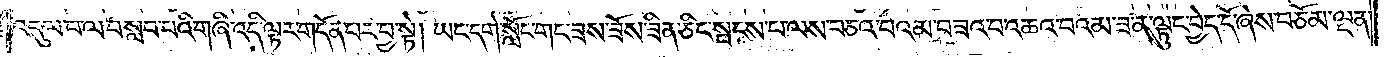འདུལ་བ་ལ་བསླབ་པའི་གཞི་འདི་ལྟར་གདོན་པར་བྱ་སྟེ། ཡང་དགེ་སློང་གང་ཟས་ཟོས་ཟིན་ཅིང་སྤངས་པ་ལས་བཅའ་བའམ་བཟའ་བ་འཆའ་བའམ་ཟ་ན་ལྟུང་བྱེད་དོ་ཞེས་བཅོམ་ལྡན་
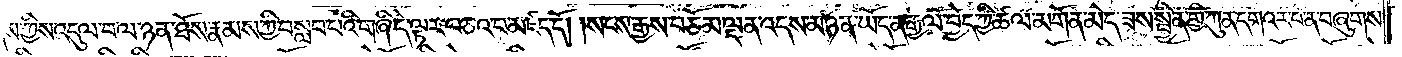འདས་ཀྱིས་འདུལ་བ་ལ་ཉན་ཐོས་རྣམས་ཀྱི་བསླབ་པའི་གཞི་དེ་ལྟར་བཅའ་བ་མཛད་དོ། །སངས་རྒྱས་བཅོམ་ལྡན་འདས་མཉན་ཡོད་ན་རྒྱལ་བྱེད་ཀྱི་ཚལ་མགོན་མེད་ཟས་སྦྱིན་གྱི་ཀུན་དགའ་ར་བ་ན་བཞུགས་
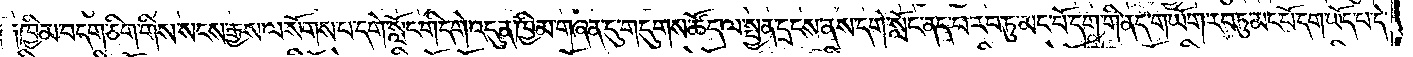སོ། །ཁྱིམ་བདག་ཅིག་གིས་སངས་རྒྱས་ལ་སོགས་པ་དགེ་སློང་གི་དགེ་འདུན་ཁྱིམ་གཞན་དུ་གདུགས་ཚོད་ལ་སྤྱན་དྲངས་ནས་དགེ་སློང་ནད་པ་རབ་ཏུ་མང་པོ་དག་གི་ནད་གཡོག་རབ་ཏུ་མང་པོ་དག་ཡོད་པ་དེ་
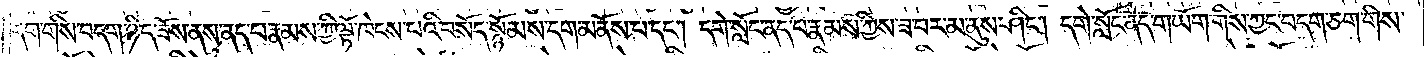དག་གིས་བདག་ཉིད་ཟོས་ནས་ནད་པ་རྣམས་ཀྱི་ལྟོ་ཁེངས་པའི་བསོད་སྙོམས་དག་མནོས་པ་དང༌། དགེ་སློང་ནད་པ་རྣམས་ཀྱིས་ཟ་བར་མ་ནུས་ཤིང༌། དགེ་སློང་ནད་གཡོག་གིས་ཀྱང་བདག་ཅག་གིས་
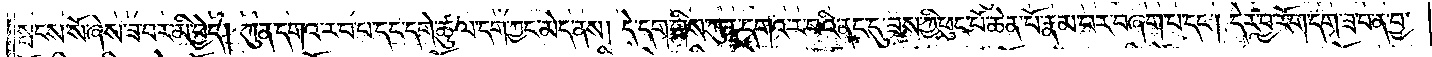སྤངས་སོ་ཞེས་ཟ་བར་མི་བྱེད། ཀུན་དགའ་ར་བ་པ་དང་དགེ་ཚུལ་དག་ཀྱང་མེད་ནས། དེ་དག་གིས་ཀུན་དགའ་ར་བའི་ནང་དུ་ཟས་ཀྱི་ཕུང་པོ་ཆེན་པོ་རྣམ་པར་བཞག་པ་དང༌། དེར་བྱ་རོག་དག་ཟ་བ་ན་བྱ་
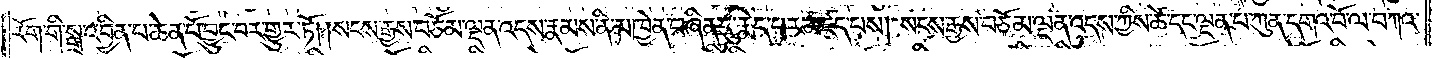རོག་གི་སྒྲ་འབྱིན་པ་ཆེན་པོ་བྱུང་བར་གྱུར་ཏོ། །སངས་རྒྱས་བཅོམ་ལྡན་འདས་རྣམས་ནི་མཁྱེན་བཞིན་དུ་རྨེད་པར་མཛད་པས། སངས་རྒྱས་བཅོམ་ལྡན་འདས་ཀྱིས་ཚེ་དང་ལྡན་པ་ཀུན་དགའ་བོ་ལ་བཀའ་
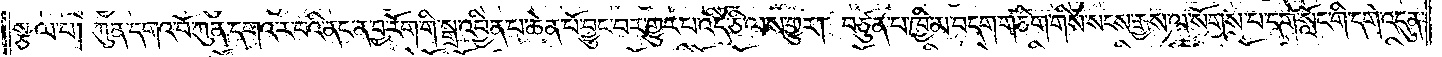སྩལ་པ། ཀུན་དགའ་བོ་ཀུན་དགའ་ར་བའི་ནང་ན་བྱ་རོག་གི་སྒྲ་འབྱིན་པ་ཆེན་པོ་བྱུང་བར་གྱུར་བ་འདི་ཅི་ལས་གྱུར། བཙུན་པ་ཁྱིམ་བདག་གཅིག་གིས་སངས་རྒྱས་ལ་སོགས་པ་དགེ་སློང་གི་དགེ་འདུན་
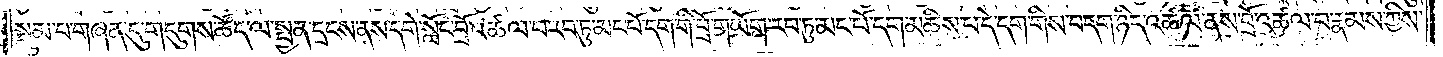སྡུམ་པ་གཞན་དུ་གདུགས་ཚོད་ལ་སྤྱན་དྲངས་ནས་དགེ་སློང་བྲོ་འཚལ་བ་རབ་ཏུ་མང་པོ་དག་གི་བྲོ་གཡོག་རབ་ཏུ་མང་པོ་དག་མཆིས་པ་དེ་དག་གིས་བདག་ཉིད་འཚལ་ནས་བྲོ་འཚལ་བ་རྣམས་ཀྱིས་
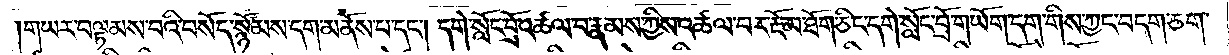གཡར་བལྟམས་པའི་བསོད་སྙོམས་དག་མནོས་པ་དང༌། དགེ་སློང་བྲོ་འཚལ་བ་རྣམས་ཀྱིས་འཚལ་བར་རྔོ་མ་ཐོག་ཅིང་དགེ་སློང་བྲོ་གཡོག་དག་གིས་ཀྱང་བདག་ཅག་
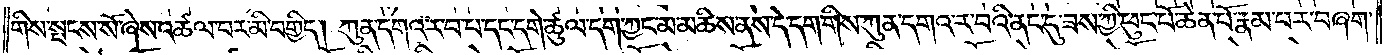གིས་སྤངས་སོ་ཞེས་འཚལ་བར་མི་བགྱིད། ཀུན་དགའ་ར་བ་པ་དང་དགེ་ཚུལ་དག་ཀྱང་མ་མཆིས་ནས་དེ་དག་གིས་ཀུན་དགའ་ར་བའི་ནང་དུ་ཟས་ཀྱི་ཕུང་པོ་ཆེན་པོ་རྣམ་པར་བཞག་
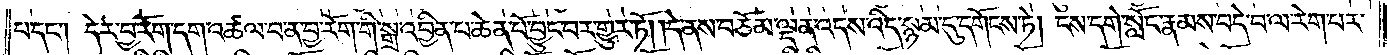པ་དང༌། དེར་བྱ་རོག་དག་འཚལ་བ་ན་བྱ་རོག་གི་སྒྲ་འབྱིན་པ་ཆེན་པོ་བྱུང་བར་གྱུར་ཏོ། །དེ་ནས་བཅོམ་ལྡན་འདས་འདི་སྙམ་དུ་དགོངས་ཏེ། ངས་དགེ་སློང་རྣམས་བདེ་བ་ལ་རེག་པར་
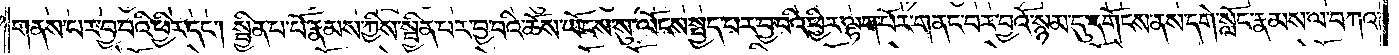གནས་པར་བྱ་བའི་ཕྱིར་དང༌། སྦྱིན་པ་པོ་རྣམས་ཀྱིས་སྦྱིན་པར་བྱ་བའི་ཆོས་ཡོངས་སུ་ལོངས་སྤྱད་པར་བྱ་བའི་ཕྱིར་ལྷག་པོར་གནང་བར་བྱའོ་སྙམ་དུ་དགོངས་ནས་དགེ་སློང་རྣམས་ལ་བཀའ་
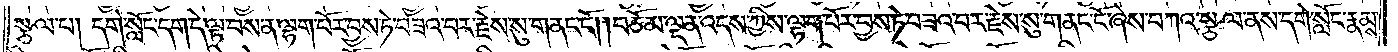སྩལ་པ། དགེ་སློང་དག་དེ་ལྟ་བས་ན་ལྷག་བོར་བྱས་ཏེ་བཟའ་བར་རྗེས་སུ་གནང་ངོ༌། །བཅོམ་ལྡན་འདས་ཀྱིས་ལྷག་པོར་བྱས་ཏེ་བཟའ་བར་རྗེས་སུ་གནང་ངོ་ཞེས་བཀའ་སྩལ་ནས་དགེ་སློང་རྣམས་
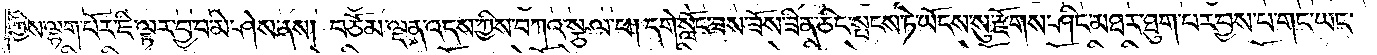ཀྱིས་ལྷག་པོར་ཇི་ལྟར་བྱ་བ་མི་ཤེས་ནས། བཅོམ་ལྡན་འདས་ཀྱིས་བཀའ་སྩལ་པ། དགེ་སློང་ཟས་ཟོས་ཟིན་ཅིང་སྤངས་ཏེ་ཡོངས་སུ་རྫོགས་ཤིང་མཐར་ཐུག་པར་བྱས་པ་གང་ཡང་
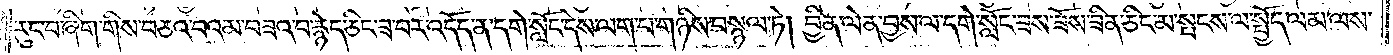རུང་བ་ཞིག་གིས་བཅའ་བའམ་བཟའ་བ་རྙེད་ཅིང་ཟ་བར་འདོད་ན་དགེ་སློང་དེས་ལག་པ་གཉིས་བསྙལ་ཏེ། བྱིན་ལེན་བྱས་ལ་དགེ་སློང་ཟས་ཟོས་ཟིན་ཅིང་མ་སྤངས་ལ་སྤྱོད་ལམ་ལས་
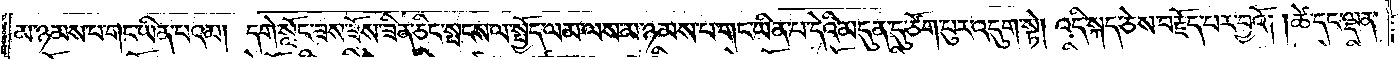མ་ཉམས་པ་གང་ཡིན་པའམ། དགེ་སློང་ཟས་ཟོས་ཟིན་ཅིང་སྤངས་ལ་སྤྱོད་ལམ་ལས་མ་ཉམས་པ་གང་ཡིན་པ་དེའི་མདུན་དུ་ཙོག་བུར་འདུག་སྟེ། འདི་སྐད་ཅེས་བརྗོད་པར་བྱའོ། །ཚེ་དང་ལྡན་
